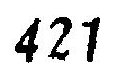421
